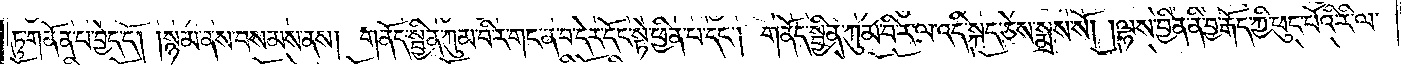ཏུ་གནོད་པ་བྱེད་དོ། །སྙམ་ནས་བསམས་ནས། གནོད་སྦྱིན་ཀུམ་བི་ར་གང་ན་བ་དེར་དོང་སྟེ་ཕྱིན་པ་དང༌། གནོད་སྦྱིན་ཀུམ་བི་ར་ལ་འདི་སྐད་ཅེས་སྨྲས་སོ། །ལྷས་བྱིན་ནི་བྱ་རྒོད་ཀྱི་ཕུང་པོའི་རི་ལ་
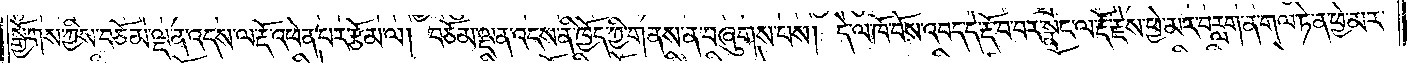སྒྱོགས་ཀྱིས་བཅོམ་ལྡན་འདས་ལ་རྡོ་འཕེན་པར་རྩོམ་པ། བཅོམ་ལྡན་འདས་ནི་ཁྱོད་ཀྱི་གནས་ན་བཞུགས་པས། དེ་ལ་ཁོ་བོས་འབད་དེ་རྡོ་བ་བར་སྣང་ལ་རྡོ་རྗེས་ཕྱེ་མར་བརླག་ན་གལ་ཏེ་ན་ཕྱེ་མར་
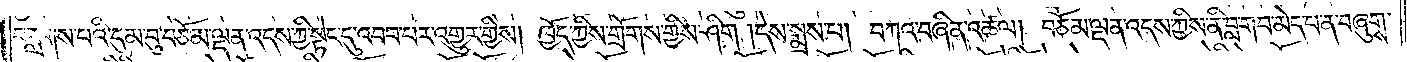བརླགས་པའི་དུམ་བུ་བཅོམ་ལྡན་འདས་ཀྱི་སྟེང་དུ་འབབ་པར་འགྱུར་གྱིས། ཁྱོད་ཀྱིས་གྲོགས་གྱིས་ཤིག །དེས་སྨྲས་པ། བཀའ་བཞིན་འཚལ། བཅོམ་ལྡན་འདས་ཀྱིས་ནི་བླ་གབ་མེད་པ་ན་བཞུགས་
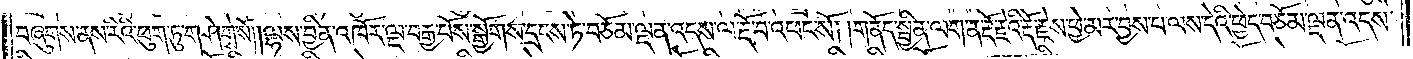བཞུགས་ནས་རིའི་ཕུག་ཏུ་གཤེགས་སོ༎ལྷས་བྱིན་འཁོར་ལྔ་བརྒྱ་པོས་སྒྱོགས་དྲངས་ཏེ་བཅོམ་ལྡན་འདས་ལ་རྡོ་བ་འཕང་སོ། །གནོད་སྦྱིན་ལག་ན་རྡོ་རྗེའི་རྡོ་རྗེས་ཕྱེ་མར་བྱས་པ་ལས་དེའི་ཕྱེད་བཅོམ་ལྡན་འདས་
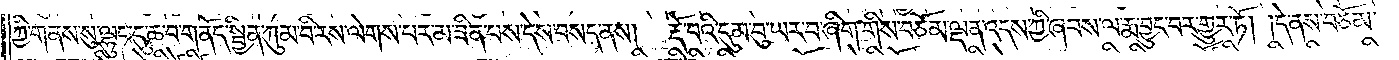ཀྱི་གནས་སུ་ལྷུང་དུ་ཆ་བ་གནོད་སྦྱིན་ཀུམ་བི་རས་ལེགས་པར་མ་ཟིན་པས་དེས་བསད་ནས། རྡོ་བའི་དུམ་བུ་ཡར་བ་ཞིག་གིས་བཅོམ་ལྡན་འདས་ཀྱི་ཞབས་ལ་རྨ་བྱུང་བར་གྱུར་ཏོ། །དེ་ནས་བཅོམ་
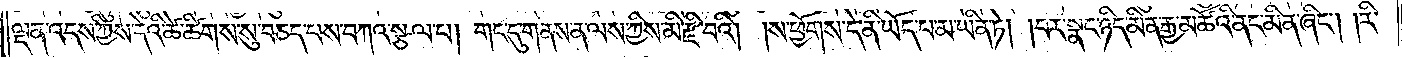ལྡན་འདས་ཀྱིས་དེའི་ཚེ་ཚིགས་སུ་བཅད་པས་བཀའ་སྩལ་པ། གང་དུ་གནས་ན་ལས་ཀྱིས་མི་རྫི་བའི། །ས་ཕྱོགས་དེ་ནི་ཡོད་པ་མ་ཡིན་ཏེ། །བར་སྣང་ཉིད་མིན་རྒྱ་མཚོའི་ནང་མིན་ཞིང༌། །རི་
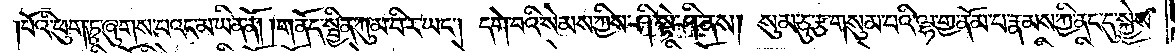།པོའི་ཕུག་ཏུ་ཞུགས་པའང་མ་ཡིན་ནོ། །གནོད་སྦྱིན་ཀུམ་བི་ར་ཡང༌། དགེ་བའི་སེམས་ཀྱིས་ཤི་སྟེ་ཤི་ནས། སུམ་ཅུ་རྩ་གསུམ་པའི་ལྷ་གྱ་ནོམ་པ་རྣམས་ཀྱི་ནང་དུ་སྐྱེས་
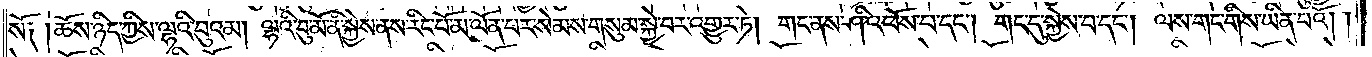སོ༑ །ཆོས་ཉིད་ཀྱིས་ལྷའི་བུའམ། ལྷའི་བུ་མོ་ནི་སྐྱེས་ནས་རིང་པོ་མ་ལོན་པར་སེམས་གསུམ་སྐྱེ་བར་འགྱུར་ཏེ། གང་ནས་ཤི་འཕོས་པ་དང༌། གང་དུ་སྐྱེས་པ་དང༌། ལས་གང་གིས་ཡིན་པའོ། །
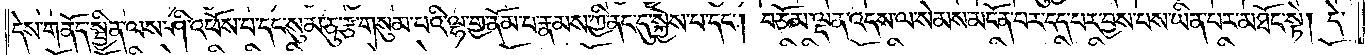དེས་གནོད་སྦྱིན་ལས་ཤི་འཕོས་པ་དང་སུམ་ཅུ་རྩ་གསུམ་པའི་ལྷ་གྱ་ནོམ་པ་རྣམས་ཀྱི་ནང་དུ་སྐྱེས་པ་དང༌། བཅོམ་ལྡན་འདས་ལ་སེམས་མངོན་པར་དད་པར་བྱས་པས་ཡིན་པར་མཐོང་སྟེ། དེ་
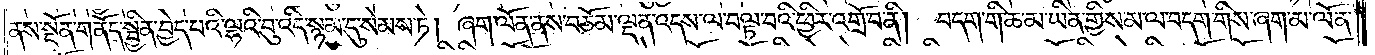ནས་སྔོན་གནོད་སྦྱིན་བྱེད་པའི་ལྷའི་བུ་འདི་སྙམ་དུ་སེམས་ཏེ། ཞག་ལོན་ནས་བཅོམ་ལྡན་འདས་ལ་བལྟ་བའི་ཕྱིར་འགྲོ་བ་ནི། བདག་གི་ཆ་མ་ཡིན་གྱིས་མ་ལ་བདག་གིས་ཞག་མ་ལོན་
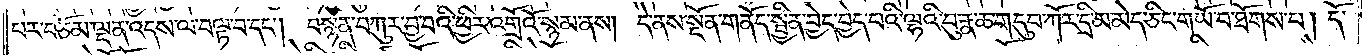པར་བཅོམ་ལྡན་འདས་ལ་བལྟ་བ་དང༌། བསྙེན་བཀུར་བྱ་བའི་ཕྱིར་འགྲོའོ་སྙམ་ནས། དེ་ནས་སྔོན་གནོད་སྦྱིན་བྱེད་པའི་ལྷའི་བུ་རྣ་ཆ་གདུབ་ཀོར་དྲི་མ་མེད་ཅིང་གཡོ་བ་ཐོགས་པ། དོ་
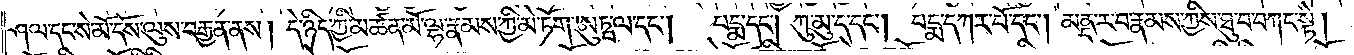ཤལ་དང་སེ་མོ་དོས་ལུས་བརྒྱན་ནས། དེ་ཉིད་ཀྱི་མཚན་མོ་ལྷ་རྣམས་ཀྱི་མེ་ཏོག་ཨུཏྤ་ལ་དང༌།   པདྨ་དང༌། ཀུ་མུ་ད་དང༌། པདྨ་དཀར་པོ་དང༌། མནྡ་ར་བ་རྣམས་ཀྱིས་ཐུ་བ་བཀང་སྟེ།
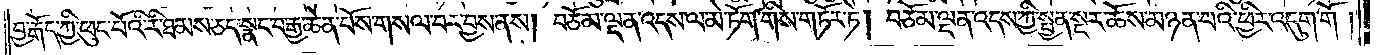བྱ་རྒོད་ཀྱི་ཕུང་པོའི་རི་ཐམས་ཅད་སྣང་བ་རྒྱ་ཆེན་པོས་གསལ་བར་བྱས་ནས། བཅོམ་ལྡན་འདས་ལ་མེ་ཏོག་གིས་གཏོར་ཏེ། བཅོམ་ལྡན་འདས་ཀྱི་སྤྱན་སྔར་ཆོས་མཉན་པའི་ཕྱིར་འདུག་གོ །
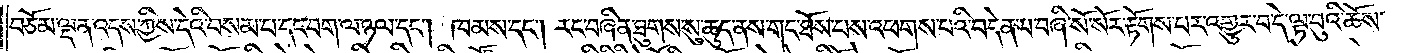བཅོམ་ལྡན་འདས་ཀྱིས་དེའི་བསམ་པ་དང་བག་ལ་ཉལ་དང༌། ཁམས་དང༌། རང་བཞིན་ཐུགས་སུ་ཆུད་ནས་གང་ཐོས་པས་འཕགས་པའི་བདེན་པ་བཞི་སོ་སོར་རྟོགས་པར་འགྱུར་བ་དེ་ལྟ་བུའི་ཆོས་
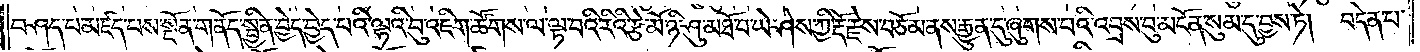བཤད་པ་མཛད་པས་སྔོན་གནོད་སྦྱིན་བྱེད་བྱེད་པའི་ལྷའི་བུ་འཇིག་ཚོགས་ལ་ལྟ་བའི་རིའི་རྩེ་མོ་ཉི་ཤུ་མཐོ་བ་ཡེ་ཤེས་ཀྱི་རྡོ་རྗེས་བཅོམ་ནས་རྒྱུན་དུ་ཞུགས་པའི་འབྲས་བུ་མངོན་སུམ་དུ་བྱས་ཏེ། བདེན་པ་
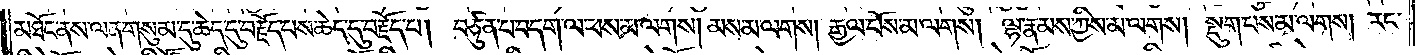མཐོང་ནས་ལན་གསུམ་དུ་ཆེད་དུ་བརྗོད་པས་ཆེད་དུ་བརྗོད་པ། བཙུན་པ་བདག་ལ་ཕས་མ་ལགས། མས་མ་ལགས། རྒྱལ་པོས་མ་ལགས། ལྷ་རྣམས་ཀྱིས་མ་ལགས། སྡུག་པས་མ་ལགས། རང་
